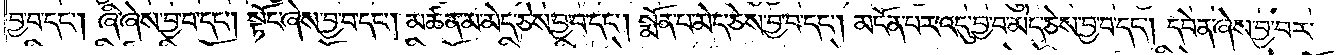བྱ་བ་དང༌། ཞི་ཞེས་བྱ་བ་དང༌། སྟོང་ཞེས་བྱ་བ་དང༌། མཚན་མ་མེད་ཅེས་བྱ་བ་དང༌། སྨོན་པ་མེད་ཅེས་བྱ་བ་དང༌། མངོན་པར་འདུ་བྱ་བ་མེད་ཅེས་བྱ་བ་དང༌། དབེན་ཞེས་བྱ་བར་
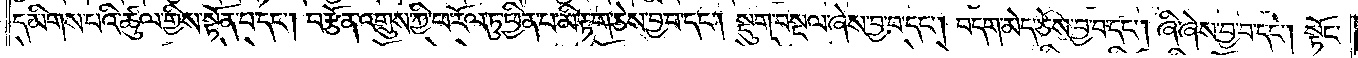དམིགས་པའི་ཚུལ་གྱིས་སྟོན་པ་དང༌། བརྩོན་འགྲུས་ཀྱི་ཕ་རོལ་ཏུ་ཕྱིན་པ་མི་རྟག་ཅེས་བྱ་བ་དང༌། སྡུག་བསྔལ་ཞེས་བྱ་བ་དང༌། བདག་མེད་ཅེས་བྱ་བ་དང༌། ཞི་ཞེས་བྱ་བ་དང༌། སྟོང་
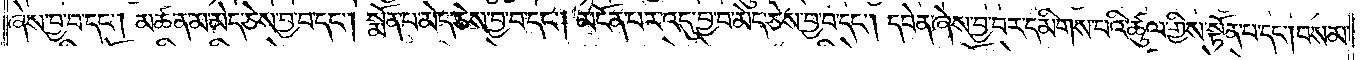ཞེས་བྱ་བ་དང༌། མཚན་མ་མེད་ཅེས་བྱ་བ་དང༌། སྨོན་པ་མེད་ཅེས་བྱ་བ་དང༌། མངོན་པར་འདུ་བྱ་བ་མེད་ཅེས་བྱ་བ་དང༌། དབེན་ཞེས་བྱ་བར་དམིགས་པའི་ཚུལ་གྱིས་སྟོན་པ་དང༌། བསམ་
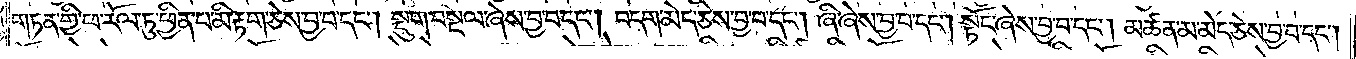གཏན་གྱི་ཕ་རོལ་ཏུ་ཕྱིན་པ་མི་རྟག་ཅེས་བྱ་བ་དང༌། སྡུག་བསྔལ་ཞེས་བྱ་བ་དང༌། བདག་མེད་ཅེས་བྱ་བ་དང༌། ཞི་ཞེས་བྱ་བ་དང༌། སྟོང་ཞེས་བྱ་བ་དང༌། མཚན་མ་མེད་ཅེས་བྱ་བ་དང༌།
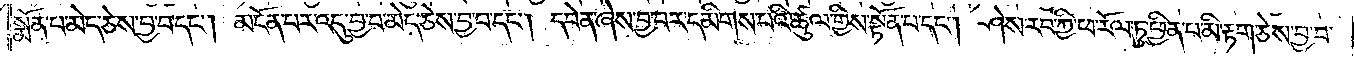སྨོན་པ་མེད་ཅེས་བྱ་བ་དང༌། མངོན་པར་འདུ་བྱ་བ་མེད་ཅེས་བྱ་བ་དང༌། དབེན་ཞེས་བྱ་བར་དམིགས་པའི་ཚུལ་གྱིས་སྟོན་པ་དང༌། ཤེས་རབ་ཀྱི་ཕ་རོལ་ཏུ་ཕྱིན་པ་མི་རྟག་ཅེས་བྱ་བ་
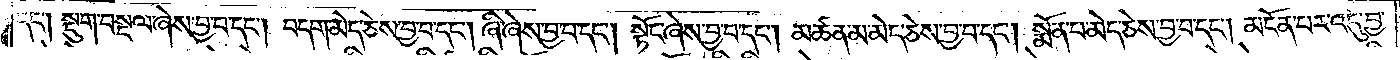དང༌། སྡུག་བསྔལ་ཞེས་བྱ་བ་དང༌། བདག་མེད་ཅེས་བྱ་བ་དང༌། ཞི་ཞེས་བྱ་བ་དང༌། སྟོང་ཞེས་བྱ་བ་དང༌། མཚན་མ་མེད་ཅེས་བྱ་བ་དང༌། སྨོན་པ་མེད་ཅེས་བྱ་བ་དང༌། མངོན་པར་འདུ་བྱ་
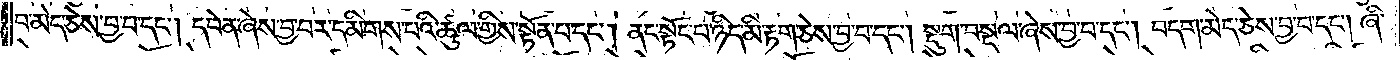བ་མེད་ཅེས་བྱ་བ་དང༌། དབེན་ཞེས་བྱ་བར་དམིགས་པའི་ཚུལ་གྱིས་སྟོན་པ་དང༌། ནང་སྟོང་པ་ཉིད་མི་རྟག་ཅེས་བྱ་བ་དང༌། སྡུག་བསྔལ་ཞེས་བྱ་བ་དང༌། བདག་མེད་ཅེས་བྱ་བ་དང༌། ཞི་
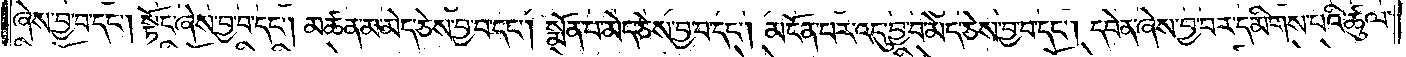ཞེས་བྱ་བ་དང༌། སྟོང་ཞེས་བྱ་བ་དང༌། མཚན་མ་མེད་ཅེས་བྱ་བ་དང༌། སྨོན་པ་མེད་ཅེས་བྱ་བ་དང༌། མངོན་པར་འདུ་བྱ་བ་མེད་ཅེས་བྱ་བ་དང༌། དབེན་ཞེས་བྱ་བར་དམིགས་པའི་ཚུལ་
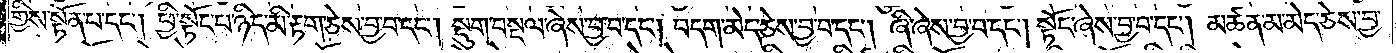གྱིས་སྟོན་པ་དང༌། ཕྱི་སྟོང་པ་ཉིད་མི་རྟག་ཅེས་བྱ་བ་དང༌། སྡུག་བསྔལ་ཞེས་བྱ་བ་དང༌། བདག་མེད་ཅེས་བྱ་བ་དང༌། ཞི་ཞེས་བྱ་བ་དང༌། སྟོང་ཞེས་བྱ་བ་དང༌། མཚན་མ་མེད་ཅེས་བྱ་
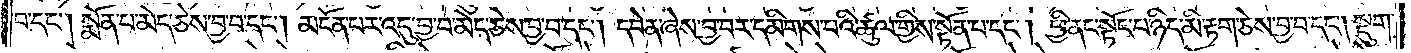བ་དང༌། སྨོན་པ་མེད་ཅེས་བྱ་བ་དང༌། མངོན་པར་འདུ་བྱ་བ་མེད་ཅེས་བྱ་བ་དང༌། དབེན་ཞེས་བྱ་བར་དམིགས་པའི་ཚུལ་གྱིས་སྟོན་པ་དང༌། ཕྱི་ནང་སྟོང་པ་ཉིད་མི་རྟག་ཅེས་བྱ་བ་དང༌། སྡུག་
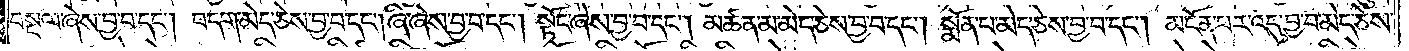བསྔལ་ཞེས་བྱ་བ་དང༌། བདག་མེད་ཅེས་བྱ་བ་དང༌། ཞི་ཞེས་བྱ་བ་དང༌། སྟོང་ཞེས་བྱ་བ་དང༌། མཚན་མ་མེད་ཅེས་བྱ་བ་དང༌། སྨོན་པ་མེད་ཅེས་བྱ་བ་དང༌། མངོན་པར་འདུ་བྱ་བ་མེད་ཅེས་
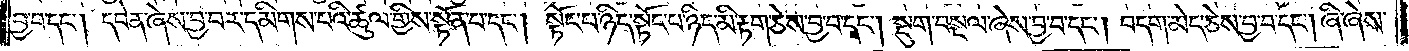བྱ་བ་དང༌། དབེན་ཞེས་བྱ་བར་དམིགས་པའི་ཚུལ་གྱིས་སྟོན་པ་དང༌། སྟོང་པ་ཉིད་སྟོང་པ་ཉིད་མི་རྟག་ཅེས་བྱ་བ་དང༌། སྡུག་བསྔལ་ཞེས་བྱ་བ་དང༌། བདག་མེད་ཅེས་བྱ་བ་དང༌། ཞི་ཞེས་
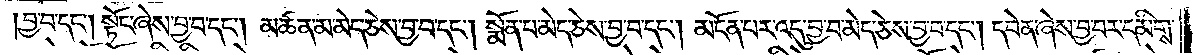བྱ་བ་དང༌། སྟོང་ཞེས་བྱ་བ་དང༌། མཚན་མེད་ཅེས་བྱ་བ་དང༌། སྨོན་པ་མེད་ཅེས་བྱ་བ་དང༌། མངོན་པར་འདུ་བྱ་བ་མེད་ཅེས་བྱ་བ་དང༌། དབེན་ཞེས་བྱ་བར་དམིགས་
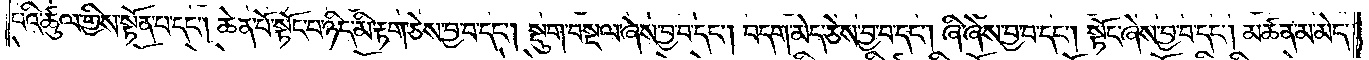པའི་ཚུལ་གྱིས་སྟོན་པ་དང༌། ཆེན་པོ་སྟོང་པ་ཉིད་མི་རྟག་ཅེས་བྱ་བ་དང༌། སྡུག་བསྔལ་ཞེས་བྱ་བ་དང༌། བདག་མེད་ཅེས་བྱ་བ་དང༌། ཞི་ཞེས་བྱ་བ་དང༌། སྟོང་ཞེས་བྱ་བ་དང༌། མཚན་མ་མེད་
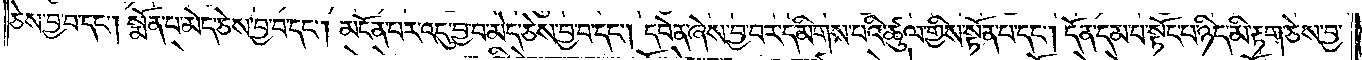ཅེས་བྱ་བ་དང༌། སྨོན་པ་མེད་ཅེས་བྱ་བ་དང༌། མངོན་པར་འདུ་བྱ་བ་མེད་ཅེས་བྱ་བ་དང༌། དབེན་ཞེས་བྱ་བར་དམིགས་པའི་ཚུལ་གྱིས་སྟོན་པ་དང༌། དོན་དམ་པ་སྟོང་པ་ཉིད་མི་རྟག་ཅེས་བྱ་
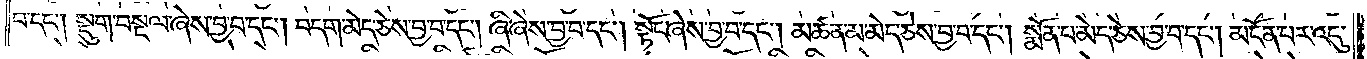བ་དང༌། སྡུག་བསྔལ་ཞེས་བྱ་བ་དང༌། བདག་མེད་ཅེས་བྱ་བ་དང༌། ཞི་ཞེས་བྱ་བ་དང༌། སྟོང་ཞེས་བྱ་བ་དང༌། མཚན་མ་མེད་ཅེས་བྱ་བ་དང༌། སྨོན་པ་མེད་ཅེས་བྱ་བ་དང༌། མངོན་པར་འདུ་
